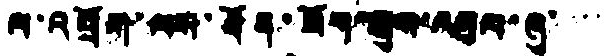ལ་འབྲོག་ལས་ཐོན་ཟོག་སྤུས་འབུལ་ཞུ་་་་
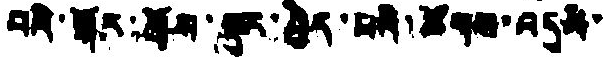བའི་སྒོར་གྲོས་སྡུར་བྱེད་པའི་ཚོགས་འདུའི་
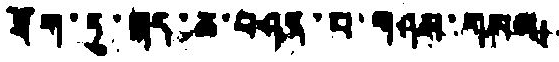ཐོག་དུ་སྐད་ཆ་བཤད་པ་གཤས་གསལ།
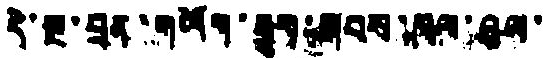དེ་སྔ་བྲན་གཡོག་རྒྱུག་སྐབས་ཁལ་ཤུལ་
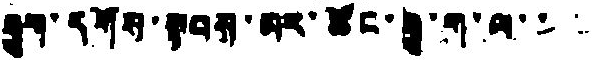རྒྱུག་དགོས་སྟབས་མར་ཚོང་རྒྱུ་ག་ལ་་་་
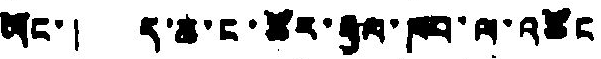ཡོང་། ད་ཆ་ང་ཚོར་རྒྱལ་ཁབ་ལ་འཚོང
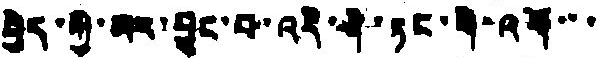བྱེད་ཀྱི་མར་བྱུང་བ་འདི་ནི་ཏང་གི་འགོ་་་
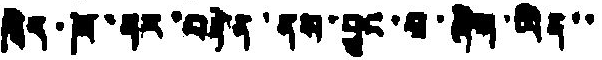ཁྲིད་ཁོ་ནར་བརྟེན་ནས་བྱུང་བ་ཞིག་ཡིན་་
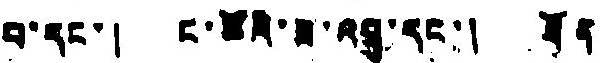པ་དང་། ང་ཚོའི་ཟ་འབྲུ་དང་། ཐོན
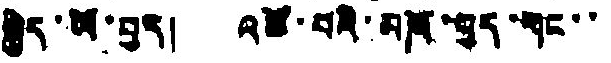སྐྱེད་ཡོ་བྱད། འཚོ་བའི་མཁོ་བྱད་གང་་
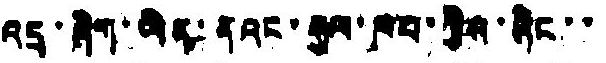འདྲ་ཞིག་ཡིན་ནའང་རྒྱལ་ཁབ་ཀྱིས་ཞིང་་
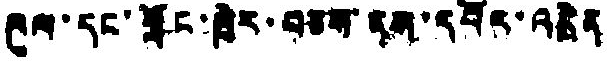ཁུལ་དང་གྲོང་ཁྱེར་བཅས་ནག་དབོར་འདྲེན
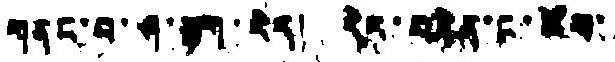གནང་བ་ཤ་ལྷག་རེད། དེར་བརྟེན་ང་ཚོས་
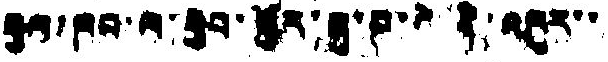རྒྱལ་ཁབ་ལ་རྒྱབ་སྐྱོར་རྒྱུ་བ་དེ་ནི་འཁུར་་
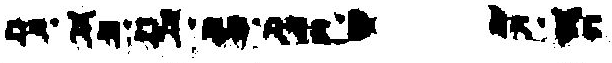བར་འོས་པའི་ལས་འགའ་       ར་སྟོང་
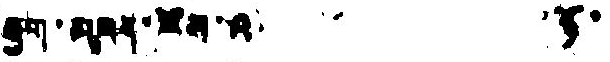རྒྱག་མཁན་རོས་འ           ཉོ་
